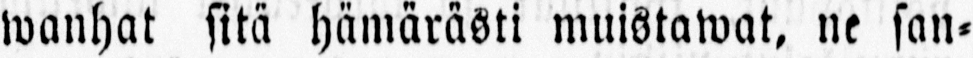wanhat sitä hämärästi muistawat, ne san-
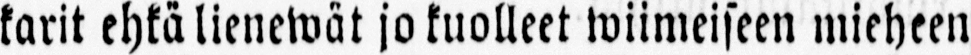karit ehkä lienewät jo kuolleet wiimeiseen mieheen
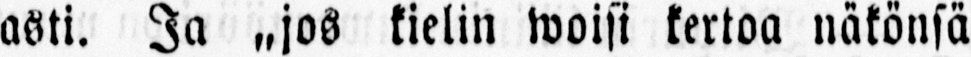asti. Ja „jos kielin woisi kertoa näkönsä
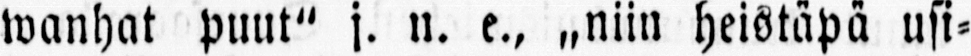wanhat puut" j. n. e., „niin heistäpä usi-
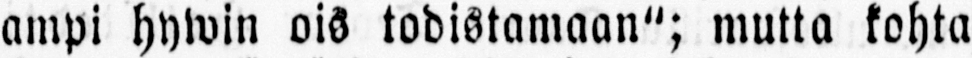ampi hywin ois todistamaan"; mutta kohta
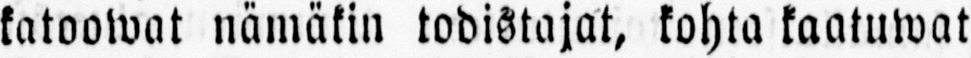katoowat nämäkin todistajat, kohta kaatuwat
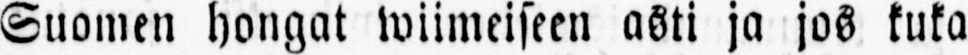Suomen hongat wiimeiseen asti ja jos kuka
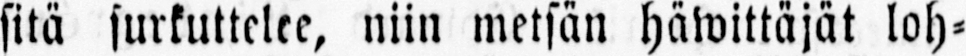sitä surkuttelee, niin metsän häwittäjät loh-
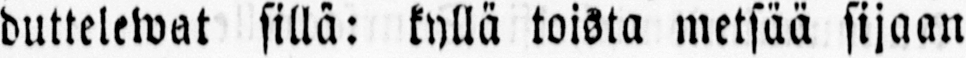duttelewat sillä: kyllä toista metsää sijaan
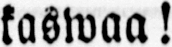kaswaa!
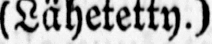(Lähetetty.)
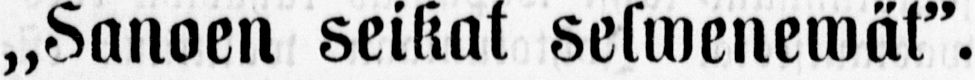˶Sanoen seikat selwenewät".
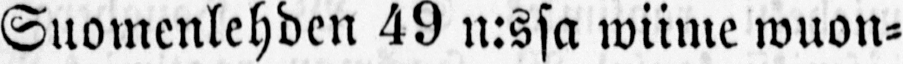Suomenlehden 49 n:ssa wiime wuon-
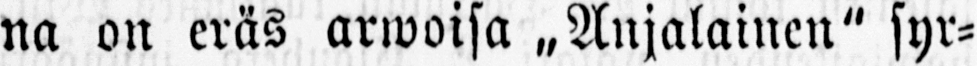na on eräs arwoisa „Anjalainen" syr-
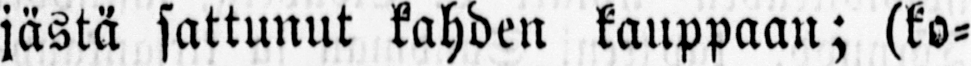jästä sattunut kahden kauppaan; (ko-
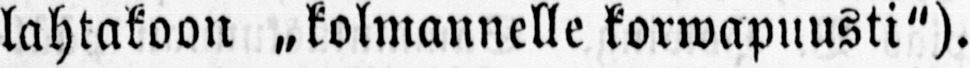lahtakoon ˶kolmannelle korwapuusti").
